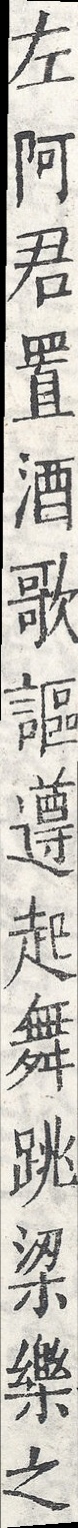左阿君置酒歌謳遵起舞跳梁樂之
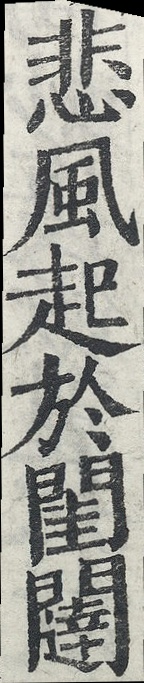悲風起於閨闥
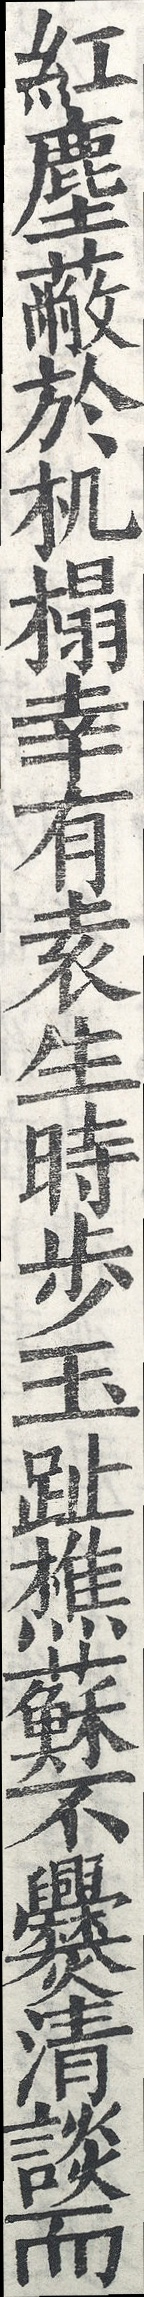紅塵蔽於机榻幸有袁生時步玉趾樵蘇不爨清談而
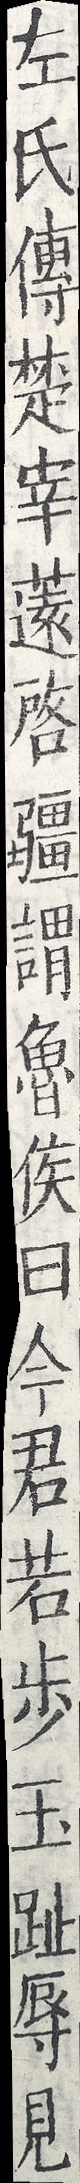左氏傳楚宰薳啟疆謂魯侯曰今君若步玉趾辱見
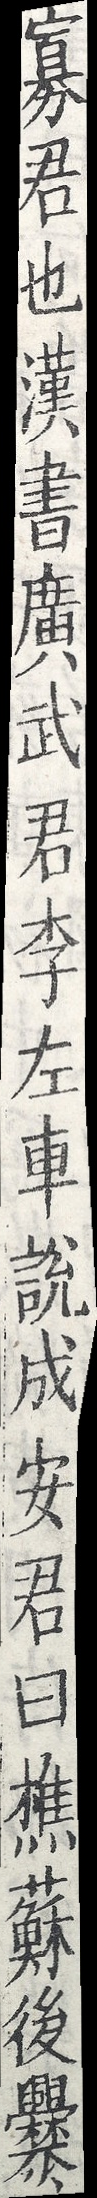寡君也漢書廣武君李左車說成安君曰樵蘇後爨
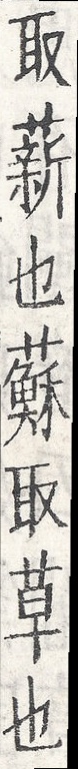取薪也蘇取草也
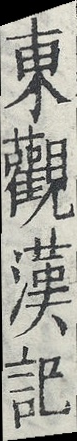東觀漢記
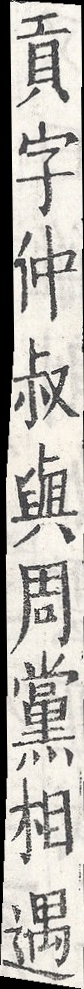貢字仲叔與周黨相遇
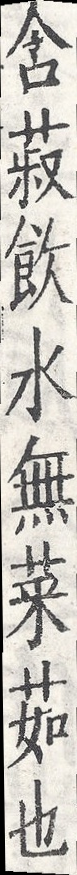含菽飲水無菜茹也
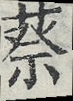蔡
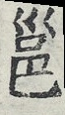邕
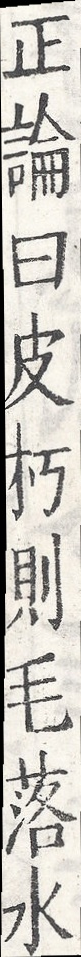正論曰皮朽則毛落水
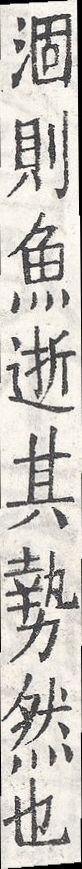涸則魚逝其勢然也
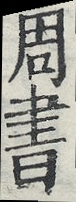周書
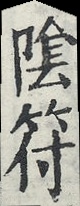陰符
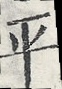平
